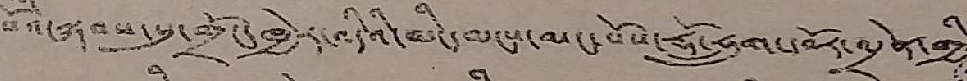པོའི་སྐབས་སུ་གྲོང་ཁྱེར་འདིའི་མི་དམངས་མང་པོས་རྡོ་ཧྲུག་དབོར་འདྲེན་གྱི
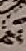ས
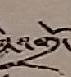་འགྲོ་
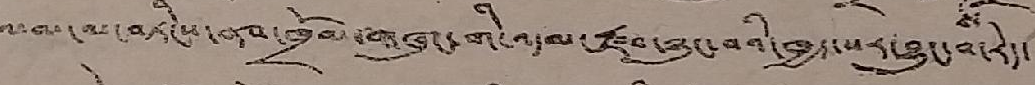ལམ་ལ་བཏིངས་ནས་ཁྲོམ་གཞུང་གི་འདམ་རྫབ་ཉུང་བའི་ཁྱད་པར་བྱུང་བ་རེད་
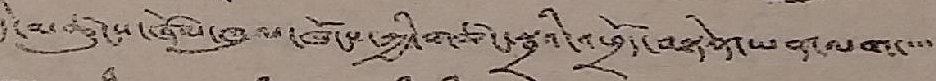དེ་མཚུངས་ཞོལ་ཁུལ་ཁོངས་ཀྱི་གཙང་སྦྲའི་འཕྲོད་བསྟེན་ཡན་ལག་་་་་
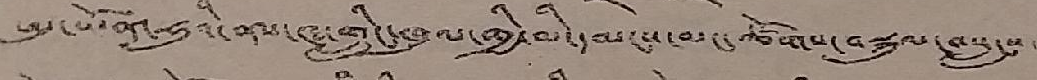ཨུ་ཡོན་ཧུའི་ནས་ཝ་གླིང་ཁུལ་གྱི་མི་དམངས་མང་ཚོགས་བསྐུལ་བསླངས་
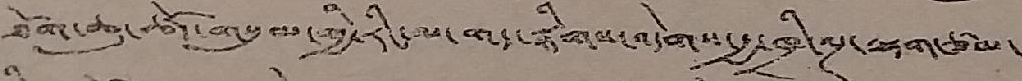ཐོག་ཆུ་ཚོད་གསུམ་གྱི་རིང་ལ་གད་སྙིགས་འདེགས་རྒྱ་ཁྲི་ལྔ་ལྷག་ཙམ་
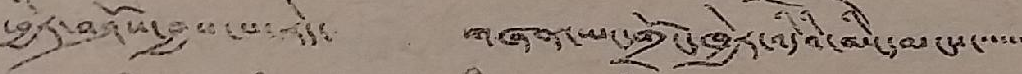ཕྱིར་བཤོས་བྱས་པ་རེད་ གཞན་ཡང་གྲོང་ཁྱེར་འདིའི་མི་དམངས་་་་་་
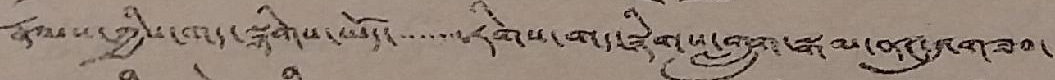རྣམས་ཀྱིས་གད་སྙིགས་ཡོད་་་་་་་རིགས་གད་སྙིགས་གླུགས་སྒམ་ནང་དུ་གཟབ་
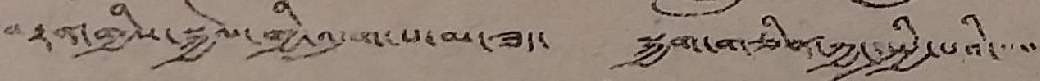རྟན་གྱིས་སྐྱེལ་གྱི་འདུག་པ་མ་ཟད་ སྐྱག་གཅིན་ཀྱང་སྤྱི་པའི་་་་
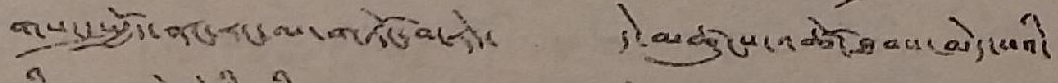གསང་སྤྱོད་ནང་རང་ལ་གཏོང་བ་རེད་ དེ་མཚུངས་འཚོ་ཐབས་མེད་པའི་
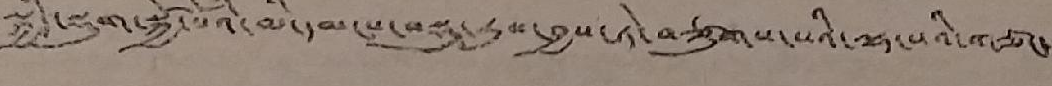སྐྱིད་སྡུག་སྐྱོ་པོའི་མི་དམངས་བསྡུ་རུས་བྱས་ཏེ་བཙུགས་པའི་གཙང་
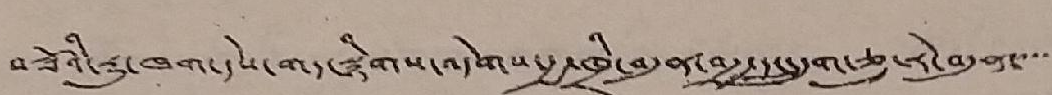བཟོའི་རུ་ཁག་དེས་གད་སྙིགས་འདེགས་རྒྱ་ཁྲི་བདུན་བརྒྱ་དང་དྲུག་ཅུ་རེ་བདུན་་་་་
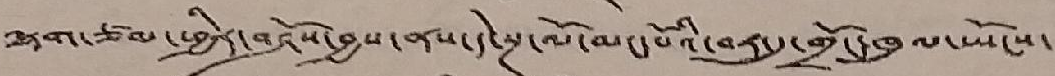ལྷག་ཙམ་ཕྱིར་བཤོས་བྱས་ནས་དེ་སྔ་ལོ་མང་པོའི་བར་དུ་གྲོང་ཁུལ་ཡོངས་
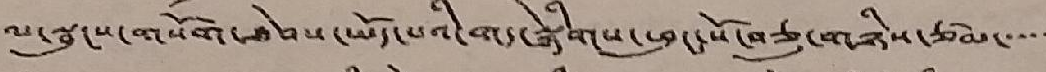ལ་སྦུངས་བྱས་པ་སོགས་ཐེབས་ཡོད་པའི་གད་སྙིགས་ཕུང་པོ་བཅུ་གཉིས་ཙམ་་་་་
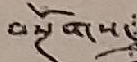བསྔོགས་
